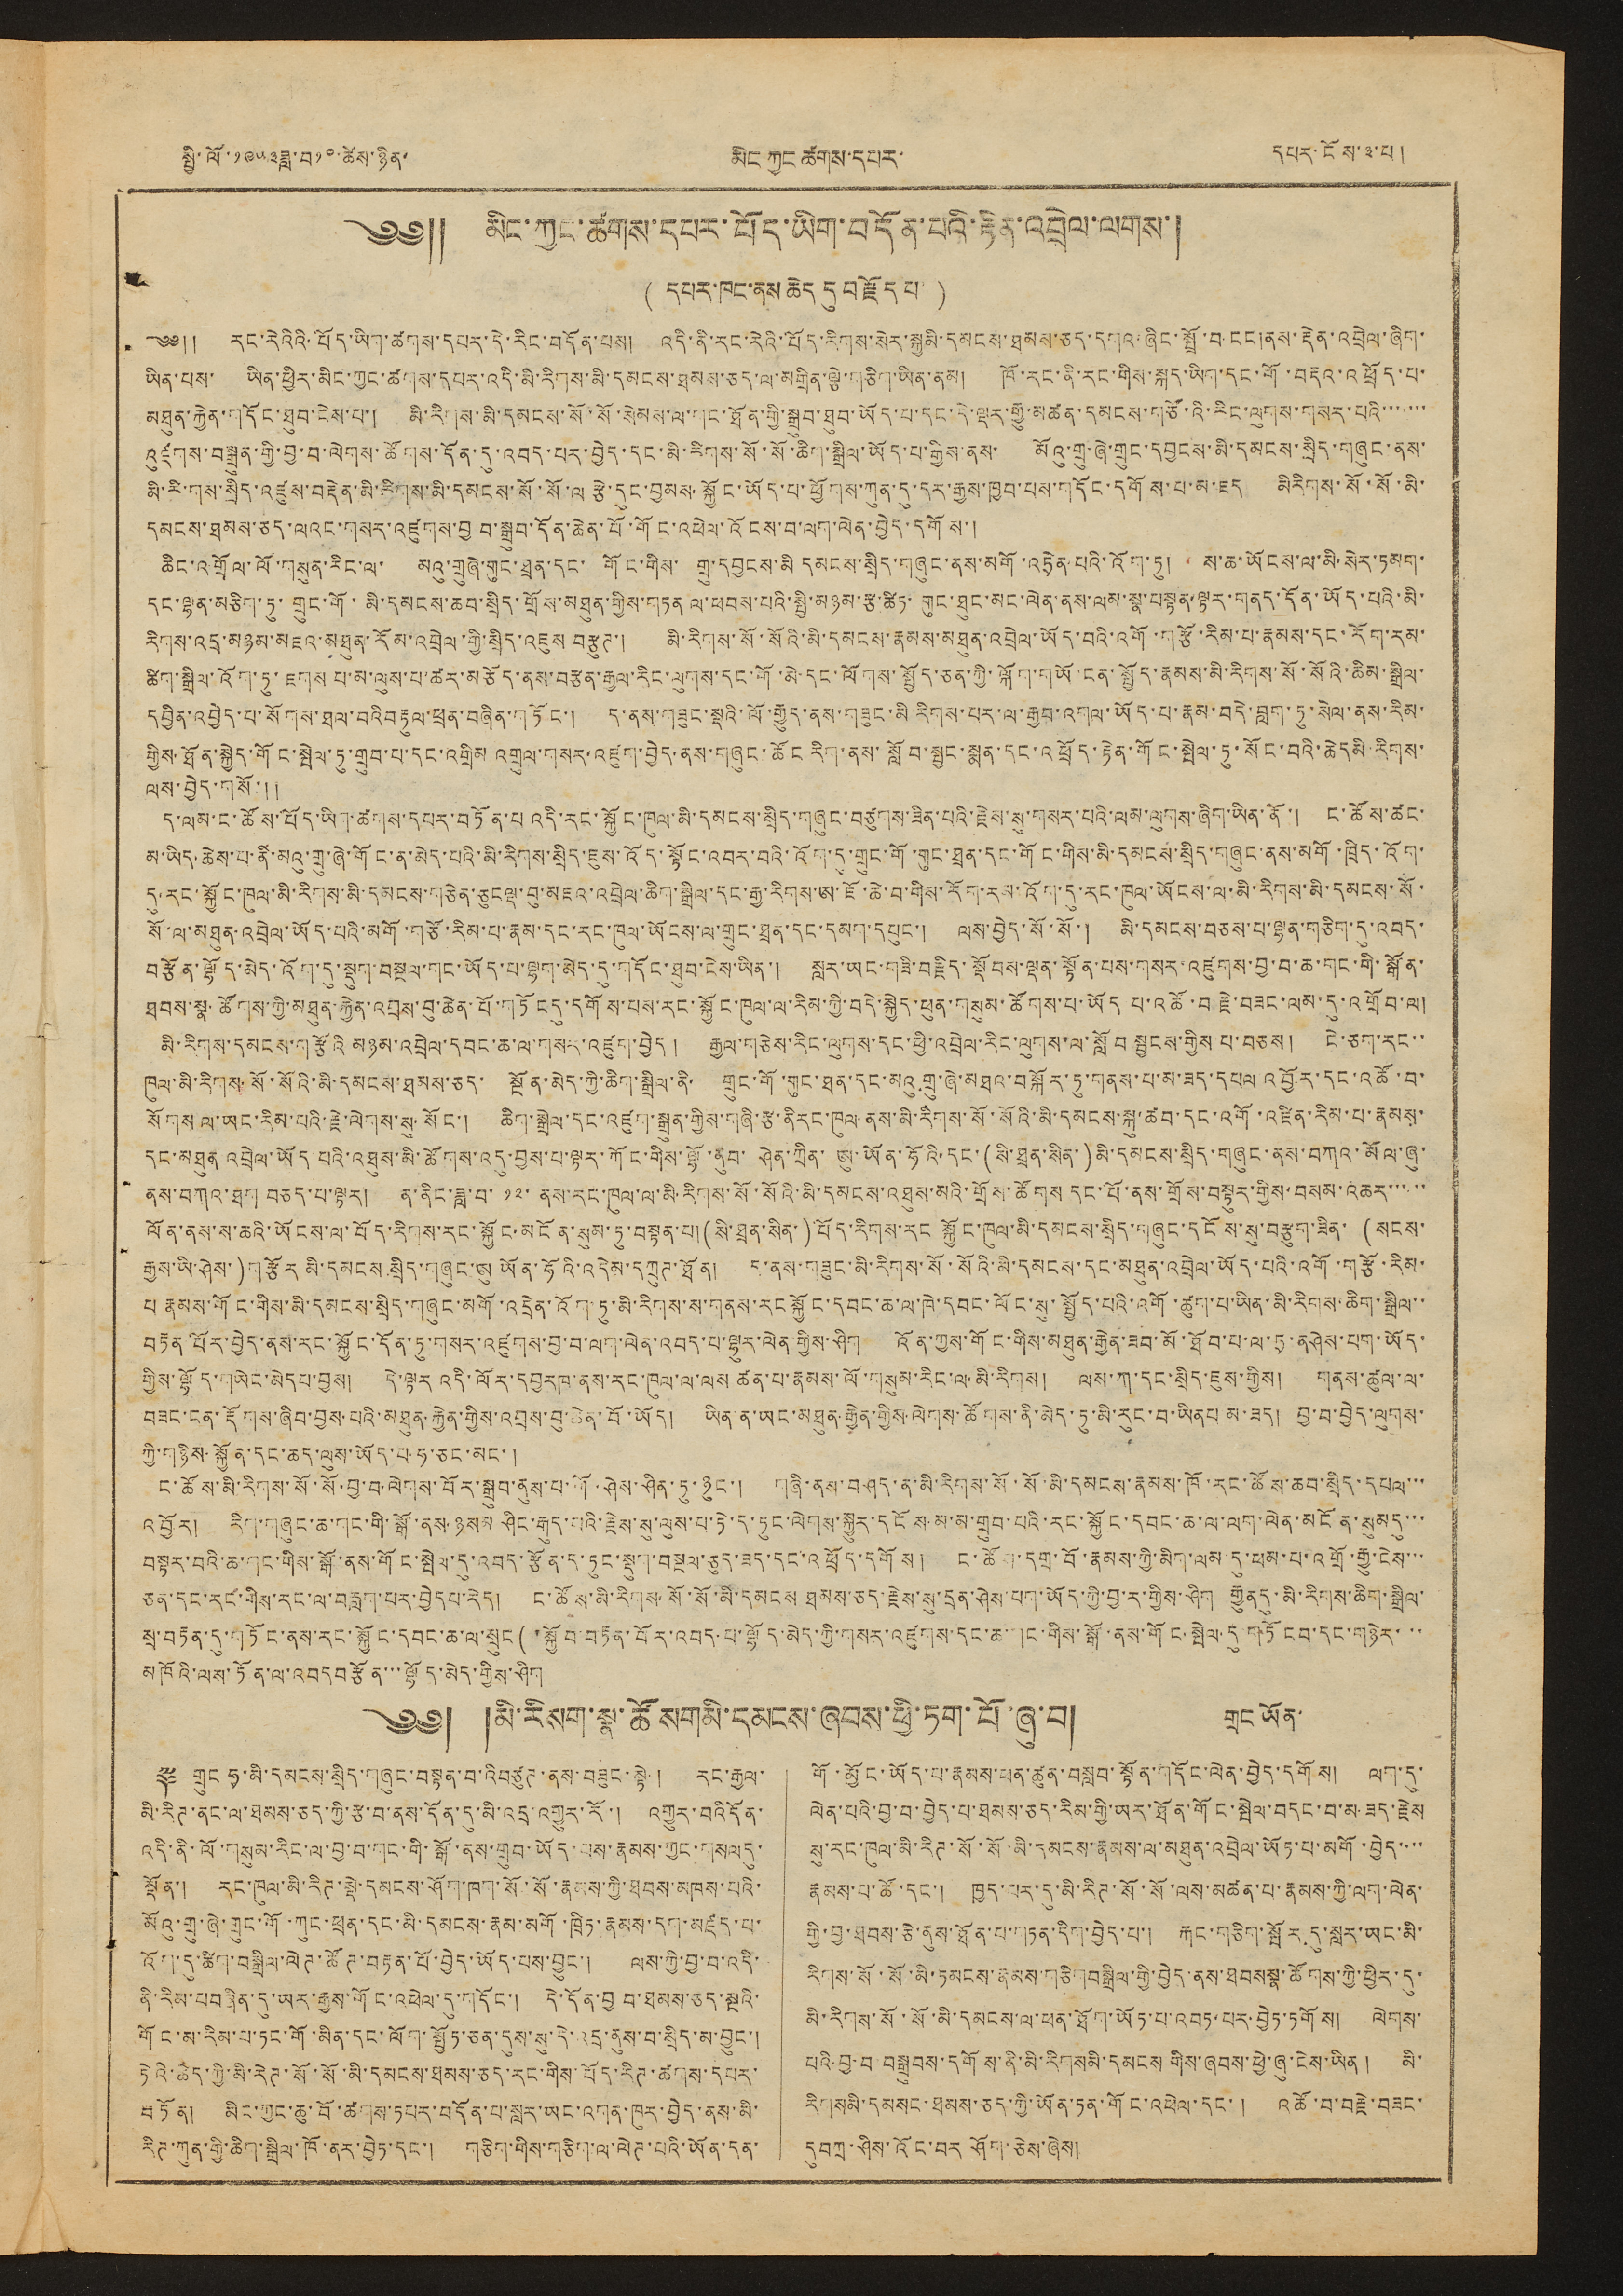སྤྱི་ལོ་༡༩༥༣ཟླ་བ༡༠་ཚེས་ཉིན་ མིང ཀྱང ཚགས་དཔར་ དཔར་ངོས་༣་པ །
༄༅༎ མིང་ཀྱང་ཚགས་དཔར་པོད་ཡིག་བདོན་པའི་རྟེན་འབྲེལ་ལགས་།
(དཔར་ཁང་ནས ཆེད དུ བརྗོད པ )
༄༅༎ རང་རེའིའི་བོད་ཡིག་ཚགས་དཔར་དེ་རིང་བདོན་པས། འདི་ནི་རང་རེའི་བོད་རིགས་སེར་སྐྱ མི་དམངས་ཐམས་ཅད་དགའ་ཞིང་སྤྲོ་བ་ངང།ནས་རྡེན་འབྲེལ་ཞིག་
ཡིན་པས་ ཡིན་ཕྱིར་མིང་ཀྱང་ཚགས་དཔར་འདི་མི་རིགས་མི་དམངས་ཐམས་ཅད་ལ་མགྲིན་ལྕེ་གཅིག་ཡིན་ནམ། ཁོ་རང་ནི་རང་གིས་སྐད་ཡིག་དང་གོ་བརྡའ་འཕྲོད་པ་
མཐུན་རྐྱེན་གདོང་ཐུབ་ངེས་པ་། མི་རིགས་མི་དམངས་སོ་སོ་སེམས་ལ་གང་ཐོན་གྱི་སྒྲུབ་ཐུབ་ཡོད་པ་དང་དེ་ལྡར་རྒྱུ་མཚན་དམངས་གཙོ་འི་རིང་ལུགས་གསར་པའི་་་་་་་
འུཛགས་བསྒྲུན་གྱི་བྱ་བ་ལེགས་ཚོགས་དོན་དུ་འབད་པར་བྱེད་དང་མི་རིགས་སོ་སོ་ཆིག་སྒྲིལ་ཡོད་པ་གྱིས་ནས་ མོའུ་གྲུ་ཞེ་གྲུང་དབྱངས་མི་དམངས་སྲིད་གཞུང་ནས་
མི་རི་གས་སྲིད་འཛུས་བརྟེན་མི་རིགས་མི་དམངས་སོ་སོ་ལ རྩེ་དུང་བྱམས་སྐྱོང་ཡོད་པ་ཕྱོགས་ཀུན་དུ་དར་རྒྱས་ཁྱབ་པས་གདོང་དགོས་པ་མ་ཇད། མིརིགས་སོ་སོ་མི་
དམངས་ཐམས་ཅད་ལའང་གསར་འཛུགས་བྱ བ་སྒྲུབ་དོན་ཆེན་པོ་གོང་འཕེལ་འོངས་བ་ལག་ལེན་བྱེད་དགོས་།
ཆིང་འགྲོལ་ལོ་གསུན་རིང་ལ་ མའུ་གྲུཞེ་གུང་ཐྲན་དང་ གོང་གིས་ གྲུ་དབྱངས་མི དམངས་སྲིད་གཞུང་ནས་མགོ་འཏྲེན་པའི་འོག་ཏུ། ས་ཆ་ཡོངས་ལ་མི་སེར་ཏམག་
དང་ལྷན་མཅིག་ཏུ་གྲུང་གོ་ མི་དམངས་ཆབ་སྲིད་གྲོས་མཐུན་གྱིས་གཏན ལ་ཕབས་པའི་སྤྱི་མཉམ་རྩ་ཚིཏ་གུང་ཐུང་མང་ལེན་ནས་ལམ་སྣ་བསྟན་ལྟར་གནད་དོན་ཡོད་པའི་མི་
རིགས་འདྲ་མཉམ་མཇའ་མཐུན་རོམ་འབྲེལ་གྱི་སྲིད་འཇུས བརྩུཊ་། མི་རིགས་སོ་སོའི་མི་དམངས་རྣམས་མཐུན་འབྲེལ་ཡོད་བའི་འགོ་གརྩོ་རིམ་པ་རྣམས་དང་རོག་རམ་
ཚིག་སྒྲིལ་འོག་ཏུ་ཇགས པ་མ་ལུས་པ་ཚར་མཅོད་ནས་བརྩན་རྒྱལ་རིང་ལུགས་དང་གོ་མེ་དང་ལོགས་སྤྱོད་ཅན་ཀྱི་ལྐོག་གཡོ་ངན་སྤྱོད་རྣམས་མི་རིགས་སོ་སོའི་ཆིས་སྒྲིལ་
དབྱིན་འབྱེད་པ་སོགས་ཐལ་བའིབརྟུལ་ཕྲན་བཞིན་གཏོང་། ད་ནས་གཟུང་སྡའི་ལོ་རྒྱུད་ནས་གཟུང་མི རིགས་པར་ལ་རྒྱབ་འགལ་ཡོད་པ་རྣམ་བདེ་བླག་ཏུ་སེལ་ནས་རིམ་
གྱིས་ཐོན་སྐྱེད་གོང་སྤེལ་ཏུ་གྲུབ་པ་དང་འགྲིམ འགྲུལ་གསར་འཛུག་བྱེད་ནས་གཞུང་ཚོང རིག་ནས་སློབ་སྦྱང་སྨན་དང་འཕྲོད་རྟེན་གོང་སྤེལ་ཏུ་སོང་བའི་ཆེདམི་རིགས་
ལས་བྱེད་གསོ་༎
ད་ལམ་ང་ཚོས་བོད་ཡིག་ཚགས་དཔར་བཏོན་པ འདི་རང་སྐྱོང་ཁུལ་མི་དམངས་སྲིད་གཞུང་བཙུགས་ཟིན་པའི་རྗེས་སུ་གསར་པའི་ལམ་ལུགས་ཞིག་ཡིན་ནོ་། ང་ཚོས་ཚང་
མ་ཡིད་ཆེས་པ་ནི་མའུ་གྲུ་ཞེ་གོང་ན་མེད་པའི་མི་རིགས་སྲིད་ཇུས་འོད་སྟོང་འབར་བའི་འོག་དུ་གྲུང་གོ་གུང་ཐྲན་དང་གོང་གིས་མི་དམངས་སྲིད་གཞུང་ནས་མགོ་ཁྲིད་འོག་
དུ་རང་སྐྱོང་ཁུལ་མི་རིགས་མི་དམངས་གཅེན་ཅུངལྡ་བུ་མཇའ་འབྲེལ་ཆིག་སྒྲིལ་དང་རྒྱ་རིགས་ཨ་ཇོ་ཆེ་བ་གིས་རོག་རས་འོག་དུ་རང་ཁུལ་ཡོངས་ལ་མི་རིགས་མི་དམངས་སོ་
སོ་ལ་མཐུན་འབྲེལ་ཡོད་པའི་མགོ་གཙོ་རིམ་པ་རྣམ་དང་རང་ཁུལ་ཡོངས་ལ་གྲུང་ཐྲན་དང་དམག་དཔུང་། ལས་བྱེད་སོ་སོ་། མི་དམངས་བཅས་པ་ལྷན་གཅིག་དུ་འབད་
བརྩོན་ལྷོད་མེད་འོག་དུ་སྡུག་བསྔལ་གང་ཡོད་པ་ལྷག་མེད་དུ་གདོང་ཐུབ་ངེས་ཡིན་། སླར་ཡང་གཟི་བརྗོད་སྡོབས་ལྡན་སྟོན་བས་གསར་འཛུགས་བྱ་བ་ཆ་གང་གི་སྒོན་
ཐབས་སྣ་ཚོགས་ཀྱི་མཐུན་རྐྱེན་འབྲས་བུ་ཆེན་པོ་གཏོང དུ་དགོས་པས་རང་སྐྱོང་ཁུལ་ལ་རིམ་ཀྱི་བདེ་སྐྱེད་ཕུན་གསུམ་ཚོགས་པ་ཡོད པ་འཚོ་བརྗེ་བཟང་ལམ་དུ་འགྲོ བ་ལ།
མི་རིགས་དམངས་གརྩོའི མཉམ་འབྲེལ་དབང་ཆ་ལ་གསར་འཛུག་བྱེད། རྒྱལ་གཅེས་རིང་ལུགས་དང་ཕྱི་འབྲེལ་རིང་ལུགས་ལ་སློབ སྦྱངས་གྱིས པ་བཅས། ངེ་ཅག་རང་་
ཁུལ་མི་རིགས་སོ་སོའི་མི་དམངས་ཐམས་ཅད་ སྔོན་མེད་ཀྱི་ཆིག་སྒྲིལ་ནི་ གྲུང་གོ་གུང་ཐན་དང་མའུ་གྲུ་ཞེ་མཐའ་བསྐོར་ཏུ་གནས་པ་མ་ཟད་དཔལ འབྱོར་དང་འཚོ་བ་
སོགས ལ་ཡང་རིམ་པའི་རྗེ་ལེགས་སུ་སོང་། ཆིག་སྒྲེལ་དང་འཛུག་སྒྲུན་གྱིས་གཞི་རྩ་ནིརང་ཁུལ་ནས་མི་རིགས་སོ་སོའི་མི་དམངས་སྐུ་ཚབ་དང་འགོ་འཛིན་རིམ་པ་རྣམས་
དང་མཐུན འབྲེལ་ཡོད པའི་འཐུས་མི་ཚོགས་འདུ་བྱས་པ་ལྟར་ཀོང་གིས་ལྷོ་ནུབ་ ཤེན་ཀྲིན་ ཨུ་ཡོན་ཧོའི་དང་(སི་ཐྲན་སིན་)མི་དམངས་སྲིད་གཞུང་ནས་བཀའ་མོལ་ཞུ་
ནས་བཀའ་ཐག བཅད་པ་ལྟར། ན་ནིང་ཟླ་བ་ ༡༢་ ནས་རང་ཁུལ་ལ་མི་རིགས་སོ་སོའི་མི་དམངས་འཐུས་མའི་གྲོས་ཚོགས དང་པོ་ནས་གྲོས་བསྟུར་གྱིས་བསམ་འཆར་་་་་
ལོན་ནས་ས་ཆའི་ཡོངས་ལ་བོད་རིགས་རང་སྐྱོང་མངོན་སུམ་ཏུ་བསྟན་པ།(སི་ཐྲན་སིན་)བོད་རིགས་རང སྐྱོང་ཁུལ་མི་དམངས་སྲིད་གཞུང་དངོས་སུ་བརྩུག་ཟིན་ (སངས་
རྒྱས་ཡི་ཤེས་)གརྩོར མི་དམངས སྲིད་གཞུང་ཨུ ཡོན་ཧོའི་འདེམ་དཀྲུཊ་ཐོན། ད་ནས་གཟུང་མི་རིགས་སོ་སོའི་མི་དམངས་དང་མཐུན་འབྲེལ་ཡོད་པའི་འགོ་གརྩོ་རིམ་
པ རྣམས་གོང་གིས་མི་དམངས་སྲིད་གཞུང་མགོ་འདྲེན་འོག་ཏུ་མི་རིགས་ས་གནས་རང སྐྱོང་དབང་ཆ་ལ་ཁེ་དབང་ལོང་སུ་སྤྱོད་པའི་འགོ་ཚུག་པ་ཡིན་མི་རིགས་ཆིག་སྒྲིལ་་
བརྟན་པོར་བྱེད་ནས་རང་སྐྱོང་དོན་ཏུ་གསར་འཛུགས་བྱ་བ་ལག་ལེན་འབད་པ་ལྷུར་ལེན གྱིས་ཤིག འོན་ཀྱས་གོང་གིས་མཐུན་རྒྱེན་ཟབ་མོ་ཐོབ་པ་ལ་ཏྲ་ནཤེས་པག་ཡོད་
གྱིས་ལྷོད་གཡེང་མེདབ་བྱས། དེ་ལྟར འདི་ལོར་དབྱརཁ་ནས་རང་ཁུལ་ལ་ལས ཚན་པ་རྣམས་སོ་གསུམ་རིང་ལ་མི་རིགས། ལམ་ཀ་དང་སྲིད་ཇུས་གྱིས། གནས་ཚུལ་ལ་
བཟང་ངན་རྡོགས་ཞིབ་བྱས་པའི་མཐུན་རྐྱེན་གྱིས་འབྲས་བུ་ཆེན་པོ་ཡོད། ཡིན་ན་ཡང་མཐུན་རྒྱེན་གྱིས་ལེགས་ཚོགས་ནི་མེད་ཏུ་མི་རུང་བ་ཡིནཔ མ་ཟད། བྱ་བ་བྱེད་ལུགས་
ཀྱི་གཉིས་སྐྱོན་དང་ཆར་ལུས་ཡོད་པ་ཧ་ཅང་མང་།
ང་ཚོས་མི་རིགས་སོ་སོ་བྱ་བ་ལེགས་བོར་སྒྲུབ་ནུས་པ་གོ་ཤེས་ཤིན་ཏུ་ཉུང་། གཞི་ནས་བཤད་ན་མི་རིགས་སོ་སོ་མི་དམངས་རྣམས་ཁོ་རང་ཚོས་ཆབ་སྲིད་དཔལ་་་
འབྱོར། རིག་གཞུང་ཆ་གང་གི་སྒོ་ནས་ཉམས ཤིང་རྒུད་པའི་རྗེས་སུ་ལུས་པ་ཏེ་ད་ཏུང་ལེགས་སྐྱུར་དངོས་མ་མ་གྲུབ་པའི་རང་སྐྱོང་དབང་ཆ་ལ་ལག་ལེན་མངོན་སུམ དུ་་་
བསྟར་བའི་ཆ་གང་གིས་སྒོ་ནས་གོང་སྤེལ་དུ་འབད་རྩོན་ད་ཏུང་སྡུག་བསྔལ་ཅུད་ཟད་དང་འཕྲོད་དགོས། ང་ཚོས་དགྲ་བོ་རྣམས་ཀྱི་མིག་ལམ་དུ་ཕམ་པ་འགྲོ་རྒྱུ་ངེས་་་
ཅན་དང་རང་གིས་རང་ལ་བརླག་པར་བྱེདཔ་རེད། ང་ཚོས་མི་རིགས་སོ་སོ་མི་དམངས ཐམས་ཅད་རྗེས་སུ་དྲན་ཤེས་པག་ཡོད་ཀྱི་བྱ་ར་གྱིས་ཤིག རྒྱུན དུ་མི་རིགས་ཆིག་སྒྲིལ་
སྲ་བརྟན་དུ་གཏོང་ནས་རང་སྐྱོང་དབང་ཆ་ལ་སྲུང(་སྐྱོབ་བརྟན་པོར་འབད་པ་ལྷོད་མེད་ཀྱི་གསར་འཛུགས་དང་ཆ་གང་གིས་སྒོ་ནས་གོང་སྤེལ་དུ གཏོངབ་དང་གཉེར་་་
མཁོའི་ལས་ཏོན་ལ་འབདབརྩོན་་་ལྷོད་མེད་གྱིས་ཤིག
༄༅། །མི་རིསག་སྣ་ཚོསགམི་དམངས་ཞབས་ཕྱི་ཏག་པོ་ཞུ་བ།
གྲང ཡོན་
༈ གྲུང ཧྭ་མི་དམངས་སྲིད་གཞུང་བསྟན་བ་འིབཙུཊ་ནས་བཟུང་སྟེ། རང་རྒྱལ་
མི་རིཊ་ནང་ལ་ཐམས་ཅད་ཀྱི་རྩ་བ་ནས་དོན་དུ་མི་འདྲ་འགྱུར་རོ་། འགྱུར་བའིདོན་
འདི་ནི་ལོ་གསུམ་རིང་ལ་བྱ་བ་གང་གི་སྒོ་ནས་གྲུབ་ཡོད་པས་རྣམས་ཀྱང་གསལདུ་
སྡོན་། རང་ཁུལ་མི་རིཊ་སྡེ་དམངས་ཤོག་ཁག་སོ་སོ་རྣམས་ཀྱི་ཐབས་མཁས་པའི་
མོའུ་གྲུ་ཞེ་གྲུང་གོ་ཀུང་ཕྲན་དང་མི་དམངས་རྣམ་མགོ་ཁྲིཏ་རྣམས་དག་མཛད་པ་
འོག་དུ་ཚིག་བསྒྲིལ་ལེཊ་ཚོཊ་བརྟན་པོ་བྱེད་ཡོད་པས་བྱུང་། ལས་ཀྱི་བྱ་བ་འདི་
ནི་རིམ་པབཞིན་དུ་ཡར་རྒྱས་གོང་འཕེལ་དུ་གདོང་། དེ་དོན་བྱ བ་ཐམས་ཅད་སྔའི་
གོང་མ་རིམ་པ་ཏང་གོ་མིན་དང་ལོག་སྤྱོཏ་ཅན་དུས་སུ་དེ་འདྲ་ནུས་བ་སྲིད་མ་བྱུང་།
དེའི་ཆེད་ཀྱི་མི་རེཊ་སོ་སོ་མི་དམངས་ཐམས་ཅད་རང་གིས་བོད་རིཊ་ཚགས་དཔར་
བཏོན། མིང་ཀྱང་ཆུ་བོ་ཚགས་ཏཔར་བདོན་པ་སླར་ཡང་འགན་ཁུར་བྱེད་ནས་མི་
རིཊ་ཀུན་གྱི་ཆིག་སྒྲིལ་ཁོ་ནར་བྱེཏ་དང་། གཅིག་གིས་གཅིག་ལ་ལེཊ་པའི་ཡོན་དན་
གོ་མྱོང་ཡོད་པ་རྣམས་ཕན་ཚུན་བསླབ་སྟོན་གདོང་ལེན་བྱེད་དགོས། ལག་དུ་
ལེན་པའི་བྱ་བ་བྱེད་པ་ཐམས་ཅད་རིམ་གྱི་ཡར་ཐོན་གོང་སྤེལ་བདང་བ་མ ཟད་རྗེས
སུ་རང་ཁུལ་མི་རིཊ་སོ་སོ་མི་དམངས་རྣམས་ལ་མཐུན་འབྲེལ་ཡོཏ་པ་མགོ་བྱེད་་་་
རྣམས་པ་ཚོ་དང་། ཁྱད་པར་དུ་མི་རིཊ་སོ་སོ་ལས་མཚན་པ་རྣམས་ཀྱི་ལག་ལེན་
གྱི་བྱ་ཐབས་ཅི་ནུས་ཐོན་པ་གཏན་དིག་བྱེད་པ་། རྐང་གཅིག་སྤོར དུ་སླར་ཡང་མི་
རིགས་སོ་སོ་མི་ཏམངས་རྣམས་གཅིག བསྒྲིལ་གྱི་བྱེད་ནས་ཐབས སྣ་ཚོགས་ཀྱི་ཕྱིར་དུ་
མི་རིགས་སོ་སོ་མི་དམངས་ལ་ཕན་ཐོག་ཡོཏ་པ་འབཏ་པར་བྱེཏ་ཏགོས། ལེགས་
པའི་བྱ་བ བསྒྲུབས་དགོས་མི་མི་རིགས མི་དམངས གིས་ཞབས་ཕྱེ་ཞུ་ངེས་ཡིན། མི་
རིགསམི་དམསང་ཐམས་ཅད་ཀྱི་ཡོན་ཏན་གོང་འཕེལ་དང་། འཚོ་བ་བརྗེ་བཟང་
དུ བཀྲ་ཤིས་འོང་བར ཤོག་ཅེས་ཞེས།
